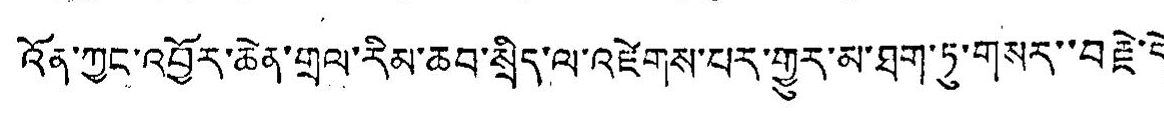འོན་ཀྱང་འབྱོར་ཆེན་གྲལ་རིམ་ཆབ་སྲིད་ལ་འཛེགས་པར་གྱུར་མ་ཐག་ཏུ་གསར་་བརྗེ་དེ་
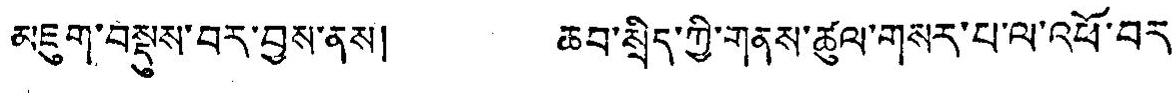མཇུག་བསྡུས་བར་བྱས་ནས། ཆབ་སྲིད་ཀྱི་གནས་ཚུལ་གསར་པ་ལ་འཕོ་བར་
